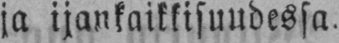ja ijankaikkisuudessa.
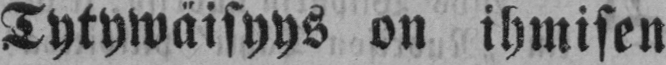Tytywäisyys on ihmisen
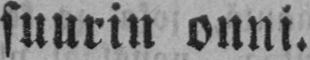suurin onni.
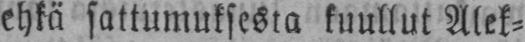Olet ehkä sattumuksesta kuullut Alek-
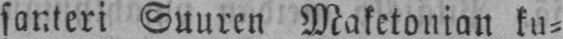santeri Suuren Maketonian ku-
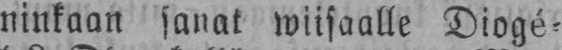ninkaan sanat wiisaalle Diogé-
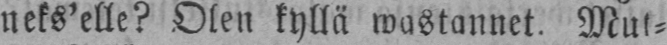neks'elle? Olen kyllä wastannet. Mut-
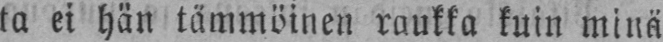ta ei hän tämmöinen raukka kuin minä
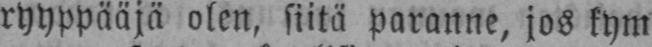ryyppääjä olen, siitä paranne, jos kym-
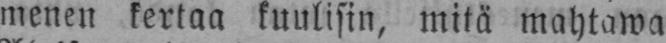menen kertaa kuulisin, mitä mahtawa
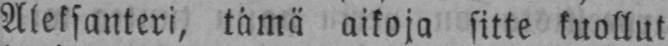Aleksanteri, tämä aikoja sitte kuollut
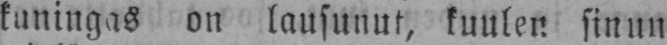kuningas on lausunut, kuulen sinun
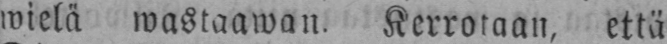wielä wastaawan. Kerrotaan, että
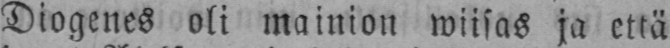Diogenes oli mainion wiisas ja että
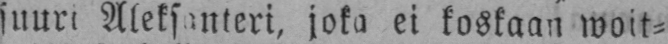suuri Aleksanteri, joka ei koskaan woit-
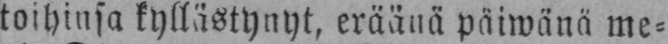toihinsa kyllästynyt, eräänä päiwänä me-
